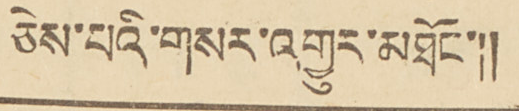ཅེས་པའི་གསར་འགྱུར་མཐོང་།།
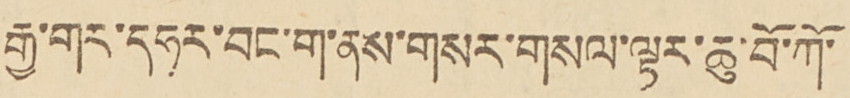རྒྱ་གར་དཧར་བང་ག་ནས་གསར་གསལ་ལྟར་ཆུ་བོ་ཀོ་
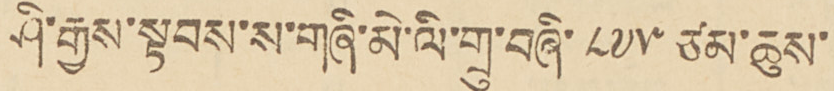ཤི་རྒྱས་སྟབས་ས་གཞི་མི་ལི་གྲུ་བཞི་ ༨༧༥ ཙམ་ཆུས་
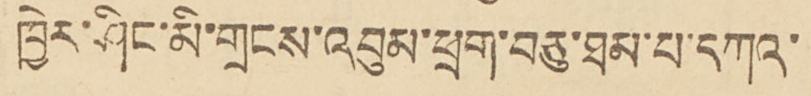ཁྱེར་ཤིང་མི་གྲངས་འབུམ་ཕྲག་བཅུ་ཐམ་པ་དཀའ་
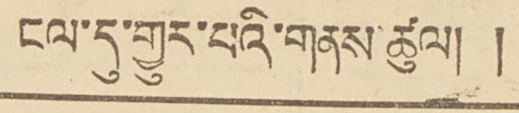ངལ་དུ་གྱུར་པའི་གནས་ཚུལ། །
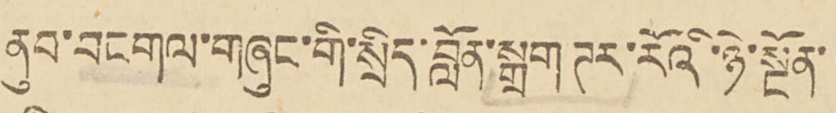ནུབ་བངགལ་གཞུང་གི་སྲིད་བློན་སྒྲག ཊར་རོའི་ཉེ་སྔོན་
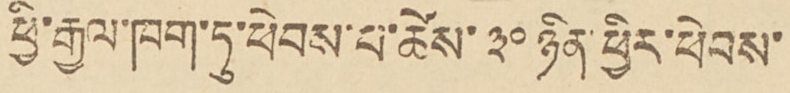ཕྱི་རྒྱལ་ཁག་ཏུ་ཕེབས་པ་ཚེས་༣༠ཉིན་ཕྱིར་ཕེབས་
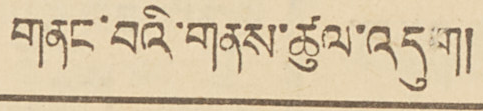གནང་བའི་གནས་ཚུལ་འདུག།།
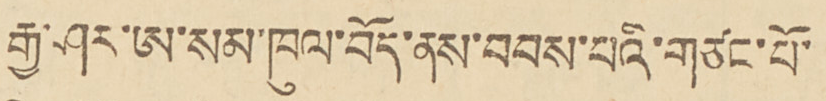རྒྱ་ཤར་ཨ་སམ་ཁུལ་བོད་ནས་བབས་པའི་གཙང་པོ་
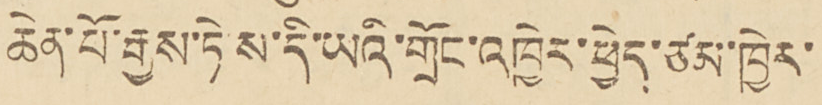ཆེན་པོ་རྒྱས་ཏེ ས་དི་ཡའི་གྲོང་འཁྱེར་ཕྱེད་ཙམ་ཁྱེར་
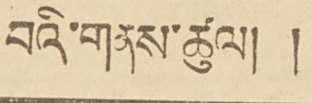བའི་གནས་ཚུལ།།
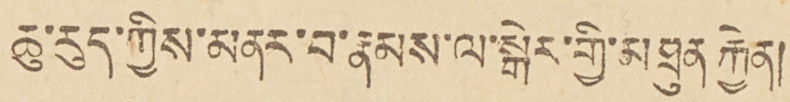ཆུ་རུད་ཀྱིས་མནར་བ་རྣམས་ལ་སྒེར་གྱི་མཐུན རྐྱེན།
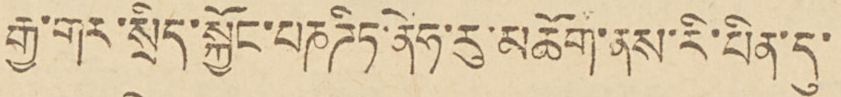རྒྱ་གར་སྲིད་སྐྱོར་པཎ ཌིཏ་ནེཧ་རུ་མཆོག་ནས་རི་པིན་དུ་
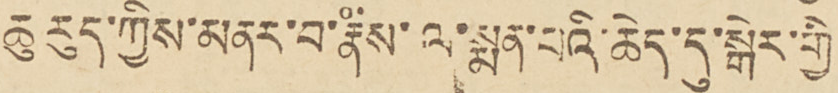ཆུ རུད་ཀྱིས་མནར་བ་རྣཾས་ལ་སྨན་པའི་ཆེད་དུ་སྒེར་གྱི
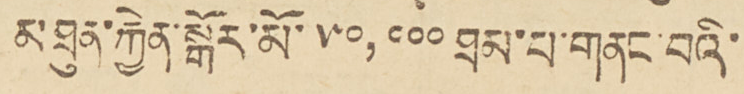མཐུན་རྐྱེན་སྒོར་མོ་ ༥༠,༠༠༠ ཐམ་པ་གནང་བའི་
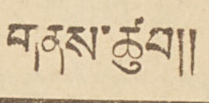གནས་ཚུབ།།
